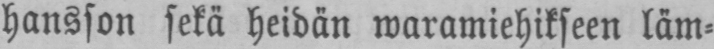hansson sekä heidän waramiehikseen läm-
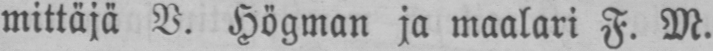mittäjä V. Högman ja maalari F. M.
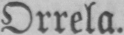Orrela.
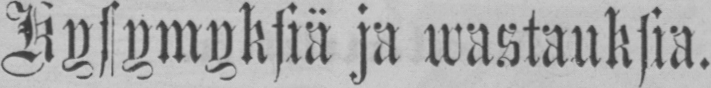Kysymyksiä ja wastauksia.
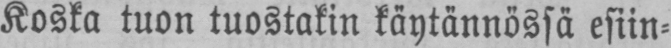Koska tuon tuostakin käytännössä esiin-
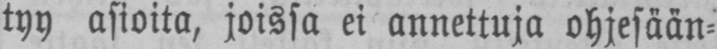tyy asioita, joissa ei annettuja ohjesään-
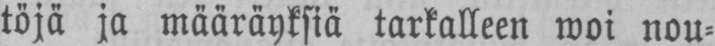töjä ja määräyksiä tarkalleen woi nou-
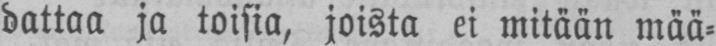dattaa ja toisia, joista ei mitään mää-
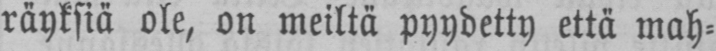räyksiä ole, on meiltä pyydetty että mah-
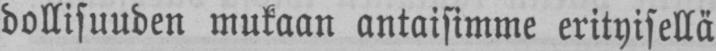dollisuuden mukaan antaisimme erityisellä
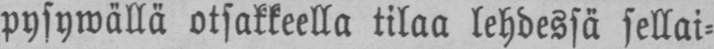pysywällä otsakkeella tilaa lehdessä sellai-
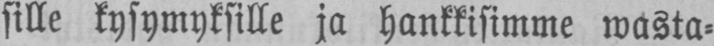sille kysymyksille ja hankkisimme wasta-
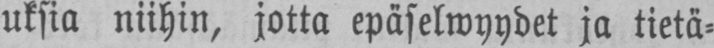uksia niihin, jotta epäselwyydet ja tietä-
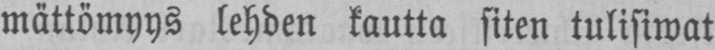mättömyys lehden kautta siten tulisiwat
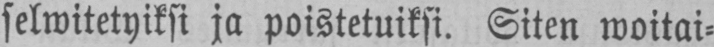selwitetyiksi ja poistetuiksi. Siten woitai-
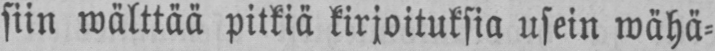siin wälttää pitkiä kirjoituksia usein wähä-
